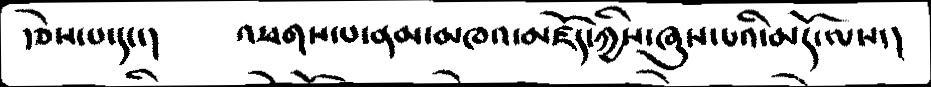་ཅེས་པ་དང་།     འཕགས་པ་ནམ་མཁའ་མཛོད་ཀྱིས་ཞུས་པའི་མདོ་ལས་།
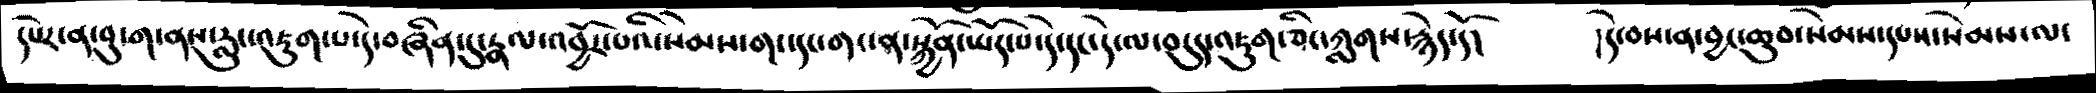དཔེར་ན་བུ་ག་ནས་རླུང་འཇུག་པ་དེ་བཞིན་དུ་རྣལ་འབྱོར་པའི་སེམས་གང་དང་གང་ན་སྐྱོན་ཡོད་པ་དེ་དང་དེ་ལ་བདུད་འཇུག་ཅིང་ཀླགས་རྙེད་དོ།    །དེ་བས་ན་བྱང་ཆུབ་སེམས་དཔས་སེམས་ལ་
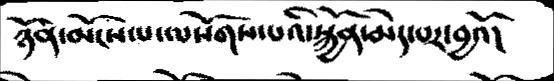ཉོན་མོངས་པ་ལསོགས་པའི་སྐྱོན་མེད་པར་བྱའོ།
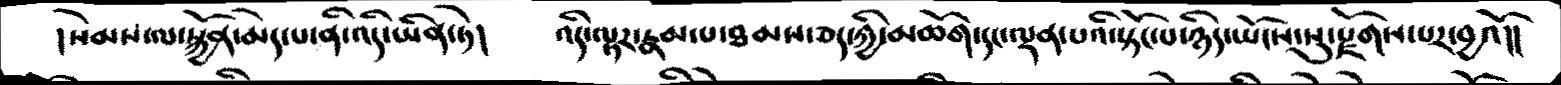།སེམས་ལ་སྐྱོན་མེད་པ་ནི་འདི་ཡིན་ཏེ།   འདི་ལྟར་རྣམ་པ་ཐམས་ཅད་ཀྱི་མཆོག་དང་ལྡན་པའི་སྟོང་པ་ཉིད་ཡོངས་སུ་རྫོགས་པར་བྱའོ།།
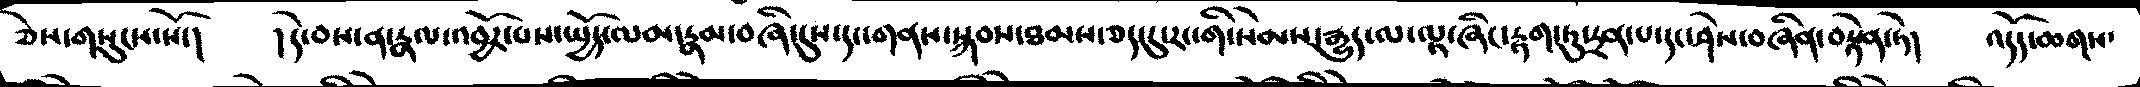ཅེས་གསུངས་སོ་།   །དེ་བས་ན་རྣལ་འབྱོར་པས་སྤྱོད་ལམ་རྣམ་བཞི་དུས་དང་གནས་སྐབས་ཐམས་ཅད་དུ་རང་གི་སེམས་རྒྱུད་ལ་ལྟ་ཞིང་རྟག་ཏུ་དྲན་པ་དང་ཤེས་བཞིན་བརྟེན་ཏེ།   འདོད་ཆགས་
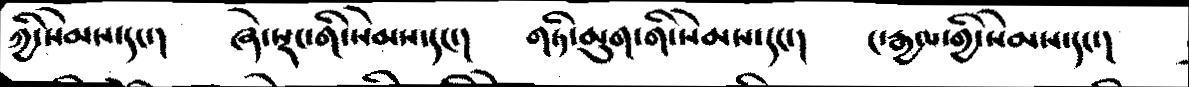ཀྱི་སེམས་དང་།   ཞེ་སྡང་གི་སེམས་དང་།   གཏི་མུག་གི་སེམས་དང་།   ང་རྒྱལ་གྱི་སེམས་དང་།
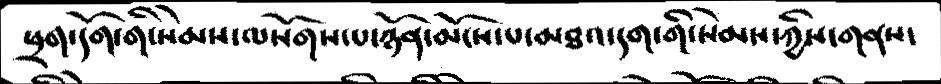ཕྲག་དོག་ནི་སེམས་ལསོགས་པ་ཉོན་མོངས་པ་མཐའ་དག་གི་སེམས་ཀྱིས་གནས་
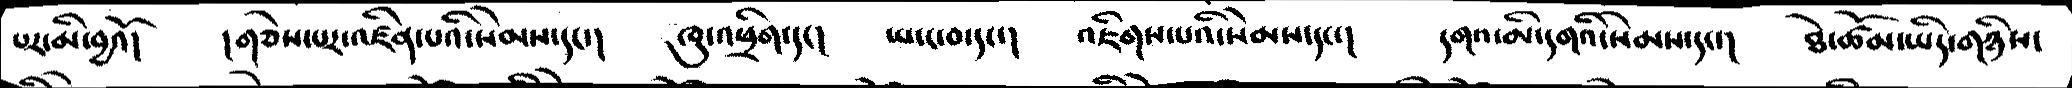པར་མི་བྱའོ།   །གཅེས་པར་འཛིན་པའི་སེམས་དང་།  ཁུ་འཕྲིག་དང་།   ཡ་ང་བ་དང་།   འཇིགས་པའི་སེམས་དང་།   དགའ་མི་དགའི་སེམས་དང་།   ཐེ་ཚོམ་ཡིད་གཉིས་
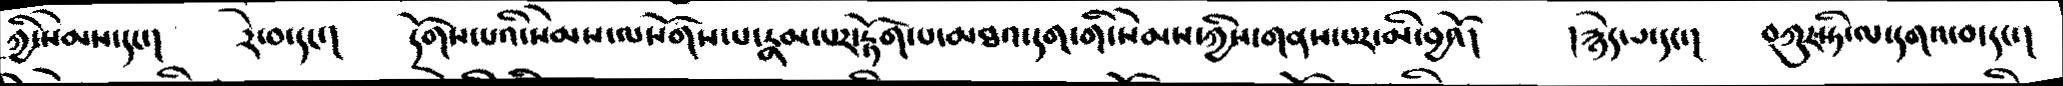ཀྱི་སེམས་དང་།  རེ་བ་དང་།  དོགས་པའི་སེམས་ལསོགས་པ་རྣམ་པར་རྟོག་པ་མཐའ་དག་གི་སེམས་ཀྱིས་གནས་པར་མི་བྱའོ།   །རྙེད་པ་དང་།  བཀུར་ཏི་ལ་དགའ་བ་དང་།
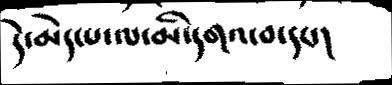དེ་མེད་པ་ལ་མི་དགའ་བ་དང་།
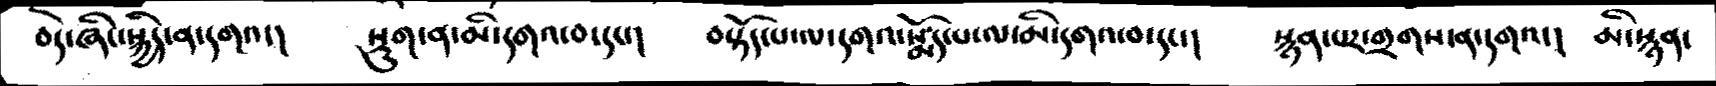བདེ་ཞིང་སྐྱིད་ན་དགའ་།  སྡུག་ན་མི་དགའ་བ་དང་།   བསྟོད་པ་ལ་དགའ་སྨོད་པ་ལ་མི་དགའ་བ་དང་།   སྙན་པར་གྲགས་ན་དགའ་།  མི་སྙན་
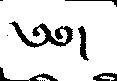༄༅།
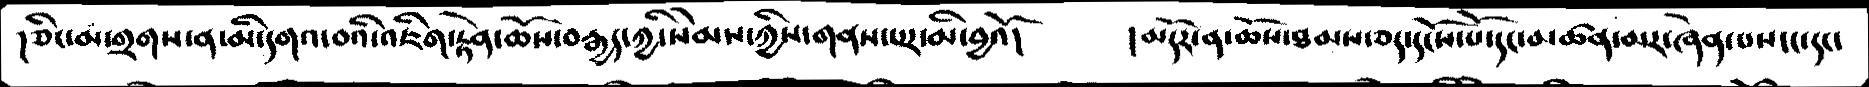།ཅིང་མ་གྲགས་ན་མི་དགའ་བའི་འཇིག་རྟེན་ཆོས་བརྒྱད་ཀྱི་སེམས་ཀྱིས་གནས་པར་མི་བྱའོ།   །མདོར་ན་ཆོས་ཐམས་ཅད་དངོས་པོ་དང་མཚན་མར་ཞེན་པས་ང་དང་
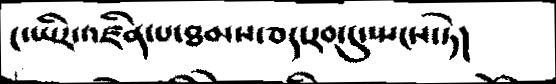ང་ཡིར་འཛིན་པ་ཐམས་ཅད་རབ་དུ་སྤངས་ཏེ།
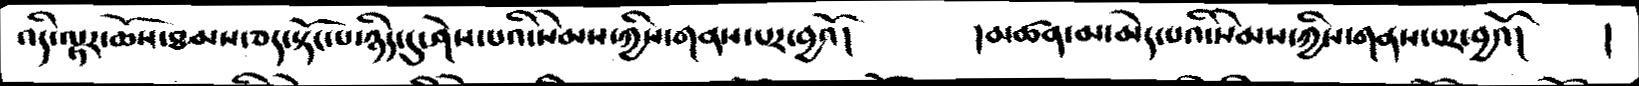འདི་ལྟར་ཆོས་ཐམས་ཅད་སྟོང་པ་ཉིད་དུ་ཤེས་པའི་སེམས་ཀྱིས་གནས་པར་བྱའོ།   །མཚན་མ་མེད་པའི་སེམས་ཀྱིས་གནས་པར་བྱའོ།   །
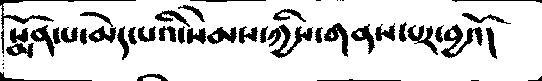སྨོན་པ་མེད་པའི་སེམས་ཀྱིས་གནས་པར་བྱའོ།
